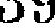39
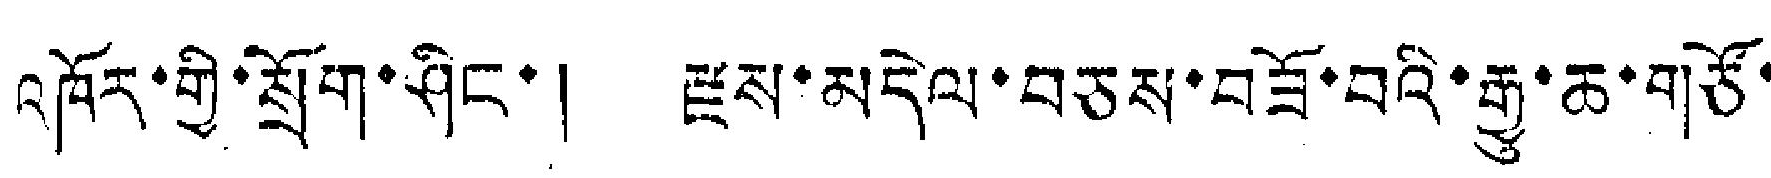འཁོར་གྱི་སྲོག་ཤིང་། རྫས་མདེལ་བཅས་བཟོ་བའི་རྒྱུ་ཆ་གཙོ་
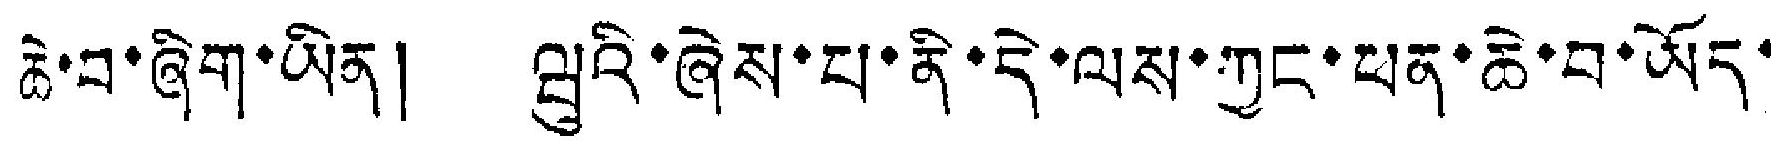ཆེ་བ་ཞིག་ཡིན། ཝུའི་ཞེས་པ་ནི་དེ་ལས་ཀྱང་ཕན་ཆེ་བ་ཡོད་
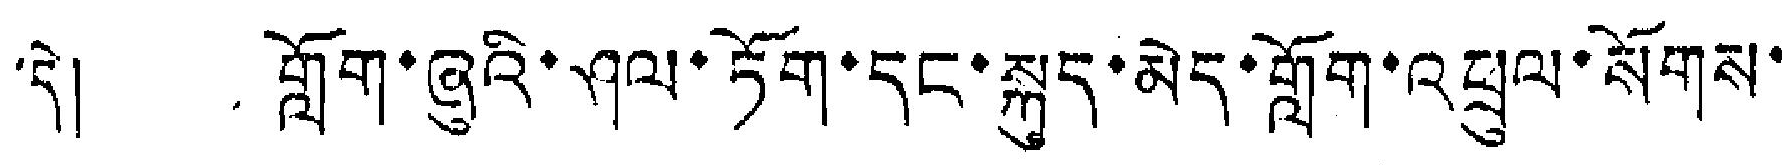དེ། གློག་ཞུའི་ཤལ་ཏོག་དང་སྐུད་མེད་གློག་འཕྲུལ་སོགས་
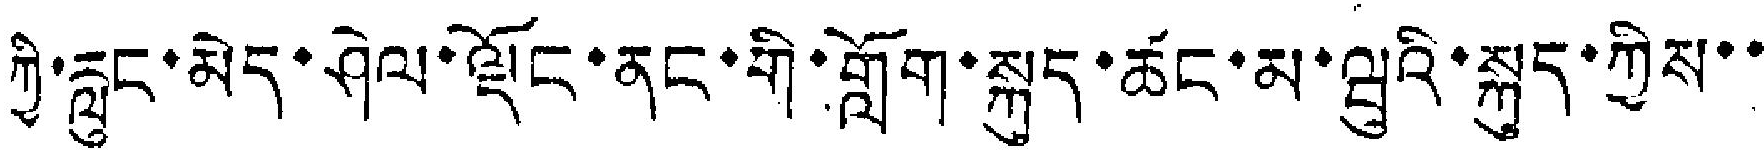ཀྱི་རླུང་མེད་ཤེལ་ལྡོང་ནང་གི་གློག་སྐུད་ཚང་མ་ཝུའི་སྐུད་ཀྱིས་་
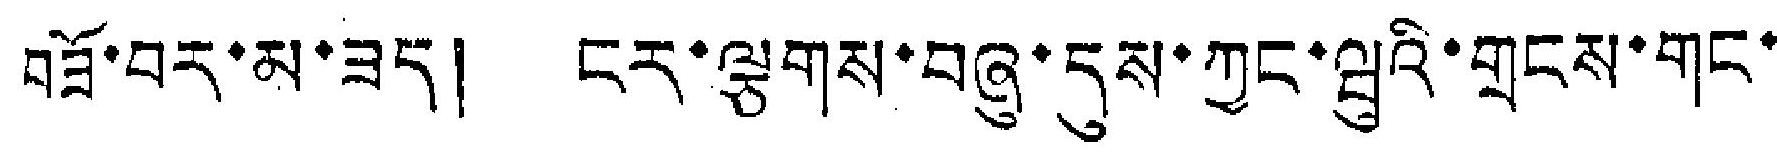བཟོ་བར་མ་ཟད། ངར་ལྕགས་བཞུ་དུས་ཀྱང་ཝུའི་གྲངས་གང་
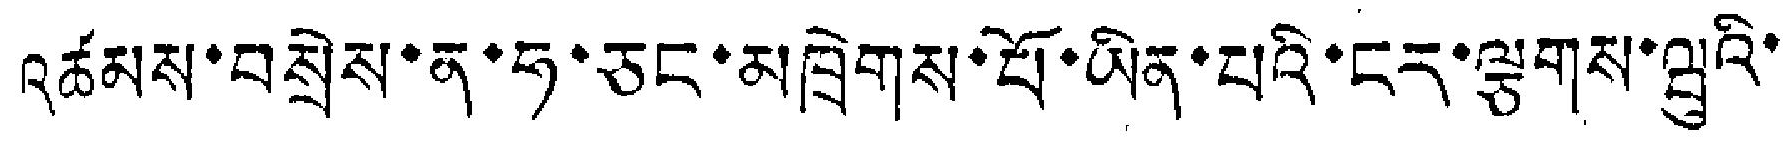འཚམས་བསྲེས་ན་ཧ་ཅང་མཁྲེགས་པོ་ཡིན་པའི་ངར་ལྕགས་ཝུའི་
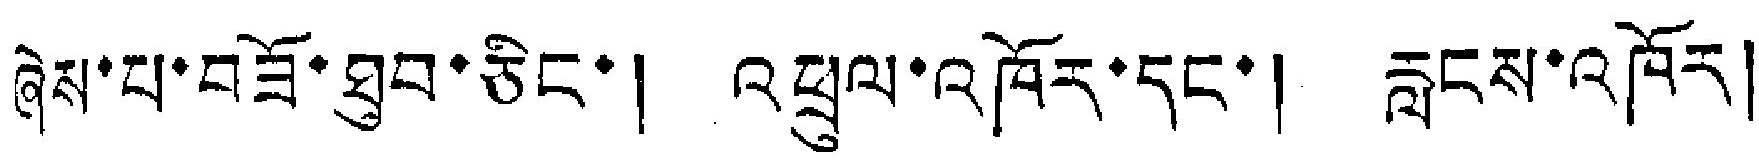ཞེས་པ་བཟོ་ཐུབ་ཅིང་། འཕྲུལ་འཁོར་དང་། རླངས་འཁོར།
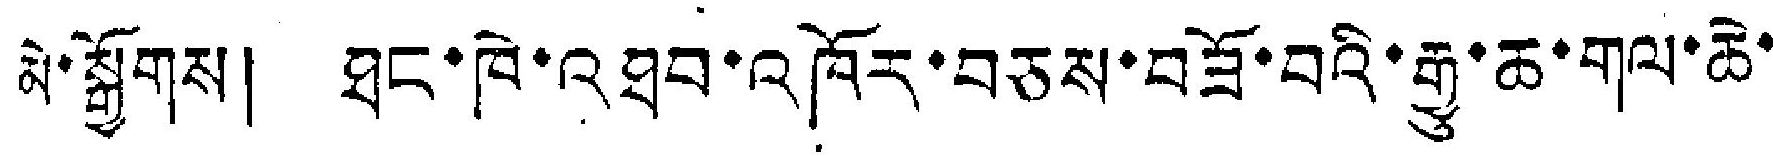མེ་སྒྱོགས། ཐང་ཁེ་འཐབ་འཁོར་བཅས་བཟོ་བའི་རྒྱུ་ཆ་གལ་ཆེ་
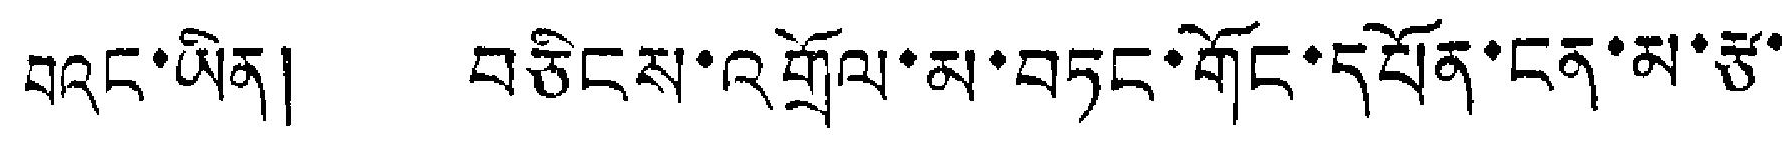བའང་ཡིན། བཅིངས་འགྲོལ་མ་བཏང་གོང་དཔོན་ངན་མ་རྩ་
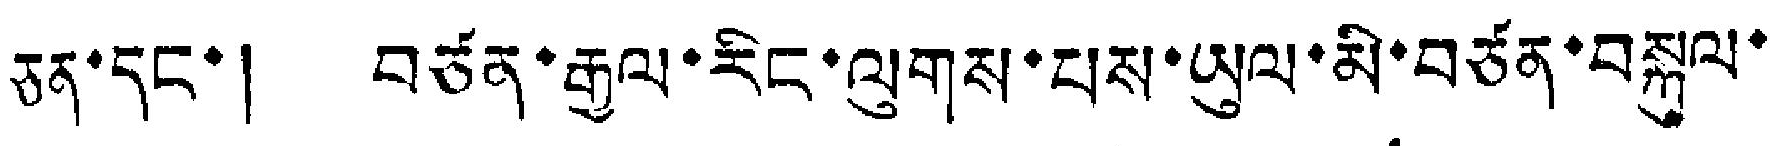ཅན་དང་། བཙན་རྒྱལ་རིང་ལུགས་པས་ཡུལ་མི་བཙན་བསྐུལ་
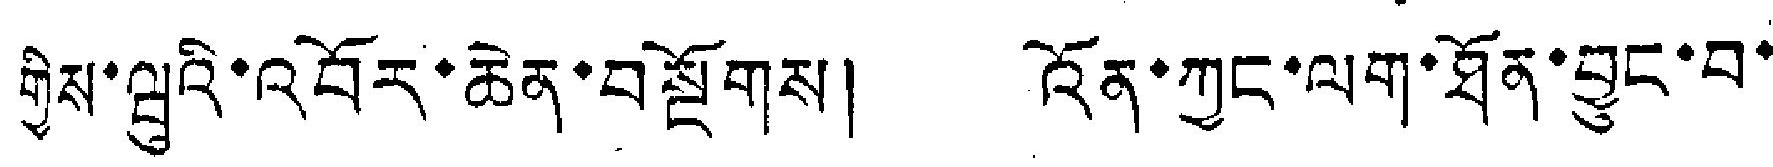གྱིས་ཝུའི་འབོར་ཆེན་བསྔོགས། འོན་ཀྱང་ལག་ཐོན་བྱུང་བ་
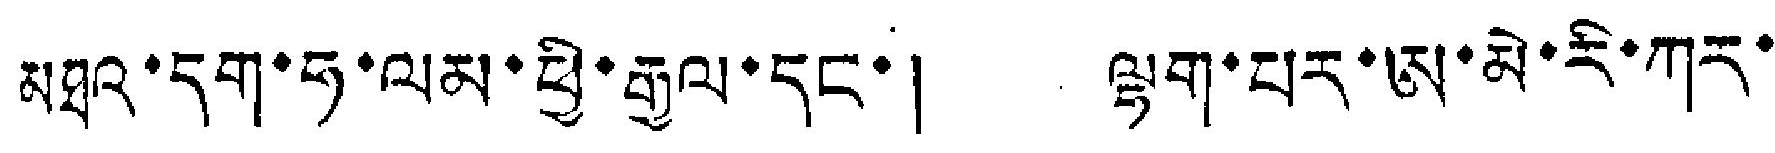མཐའ་དག་ཧ་ལམ་ཕྱི་རྒྱལ་དང་། ལྷག་པར་ཨ་མེ་རི་ཀར་
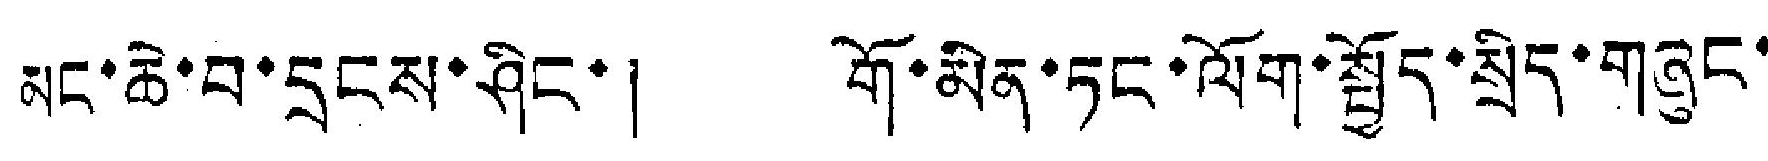མང་ཆེ་བ་དྲངས་ཤིང་། གོ་མིན་ཏང་ལོག་སྤྱོད་སྲིད་གཞུང་
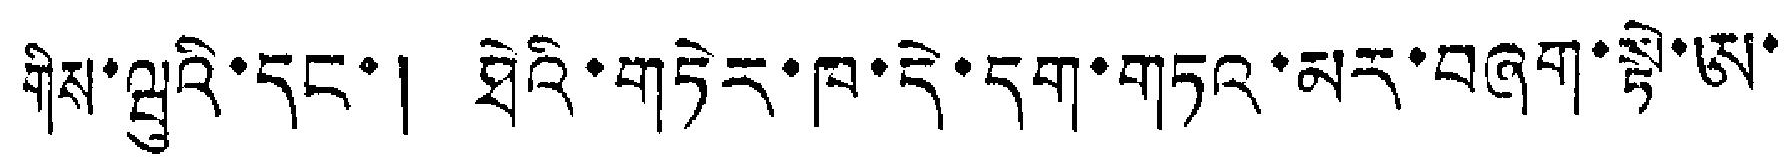གིས་ཝུའི་དང་། ཐེའི་གཏེར་ཁ་དེ་དག་གཏའ་མར་བཞག་སྟེ་ཨ་
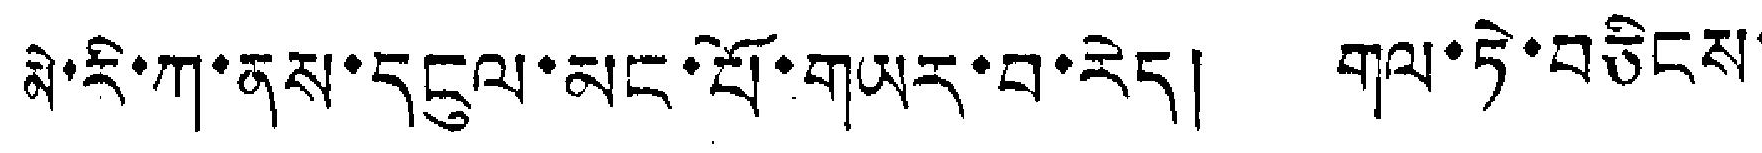མེ་རི་ཀ་ནས་དངུལ་མང་པོ་གཡར་བ་རེད། གལ་ཏེ་བཅིངས་
